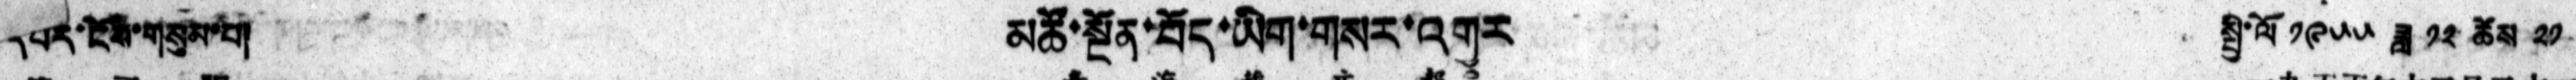པར་ངོས་གསུམ་པ།   མཚོ་སྔོན་བོད་ཡིག་གསར་འགྱུར   སྤྱི་ལོ་ ༩༥༥ ཟླ ༡༢ ཚེས ༢༡
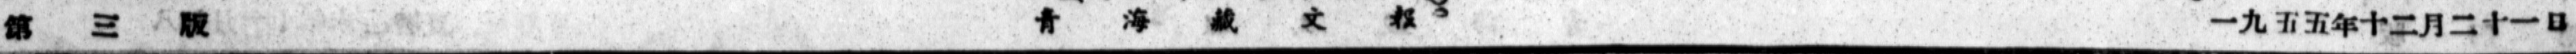第 三 版 青 海 藏 文 報 一九五五年十二月二十一日
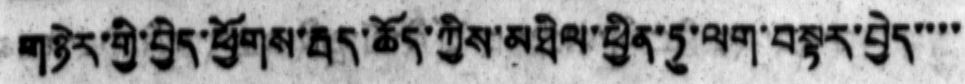གཉེར་གྱི་བྱེད་ཕྱོགས་རྦད་ཆོད་ཀྱིས་མཐིལ་ཕྱིན་ཏུ་ལག་བསྟར་བྱེད་་་་
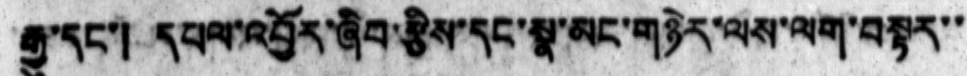རྒྱུ་དང་། དཔལ་འབྱོར་ཞིབ་རྩིས་དང་སྣ་མང་གཉེར་ལས་ལག་བསྟར་་
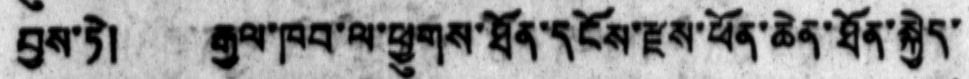བྱས་ཏེ། རྒྱལ་ཁབ་ལ་ཕྱུགས་ཐོན་དངོས་རྫས་ཕོན་ཆེན་ཐོན་སྐྱེད་་
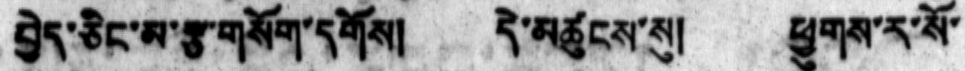བྱེད་ཅིང་མ་རྩ་གསོག་དགོས།  དེ་མཚུངས་སུ།   ཕྱུགས་ར་སོ་
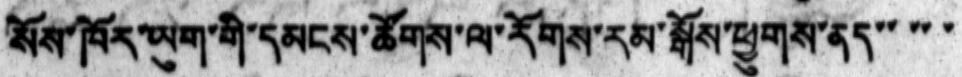སོས་ཁོར་ཡུག་གི་དམངས་ཚོགས་ལ་རོགས་རམ་སྒོས་ཕྱུགས་ནད་་་་་་
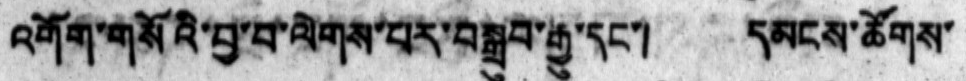འགོག་གསོའི་བྱ་བ་ལེགས་པར་བསྒྲུབ་རྒྱུ་དང་། དམངས་ཚོགས་
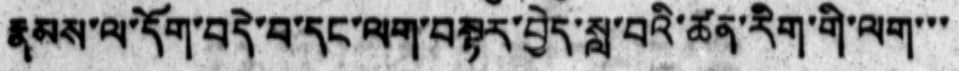རྣམས་ལ་དོག་བདེ་བ་དང་ལག་བསྟར་བྱེད་སླ་བའི་ཚན་རིག་གི་ལག་་་
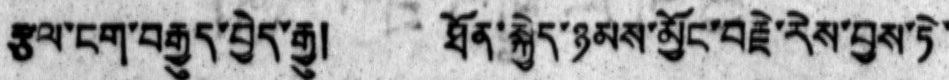རྩལ་ངག་བརྒྱུད་བྱེད་རྒྱུ།   ཐོན་སྐྱེད་ཉམས་མྱོང་བརྗེ་རེས་བྱས་ཏེ་
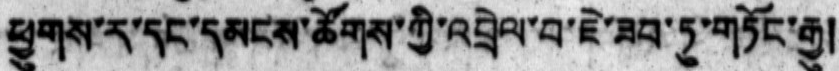ཕྱུགས་ར་དང་དམངས་ཚོགས་ཀྱི་འབྲེལ་བ་ཇེ་ཟབ་ཏུ་གཏོང་རྒྱུ།
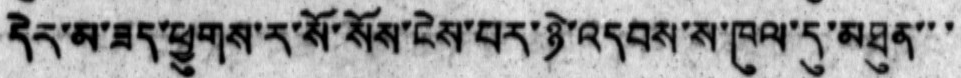དེར་མ་ཟད་ཕྱུགས་ར་སོ་སོས་ངེས་པར་ཉེ་འདབས་ས་ཁུལ་དུ་མཐུན་་་
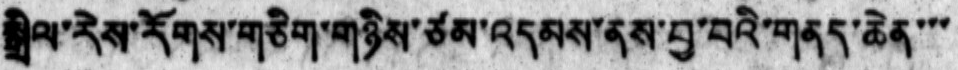སྒྲིལ་རེས་རོགས་གཅིག་གཉིས་ཙམ་འདམས་ནས་བྱ་བའི་གནད་ཆེན་་་
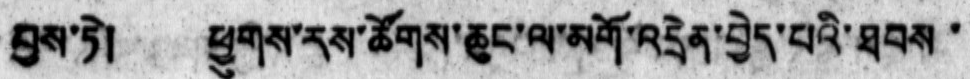བྱས་ཏེ། ཕྱུགས་རས་ཚོགས་ཆུང་ལ་མགོ་འདྲེན་བྱེད་པའི་ཐབས་
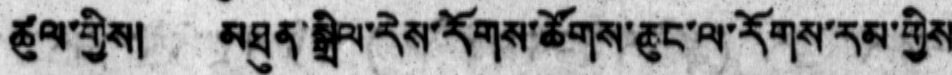ཚུལ་གྱིས། མཐུན་སྒྲིལ་རེས་རོགས་ཚོགས་ཆུང་ལ་རོགས་རམ་གྱིས
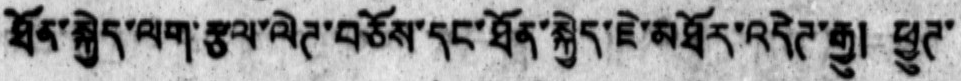ཐོན་སྐྱེད་ལག་རྩལ་ལེཊ་བཅོས་དང་ཐོན་སྐྱེད་ཇེ་མཐོར་འདེཊ་རྒྱུ། ཕྱུཊ་
